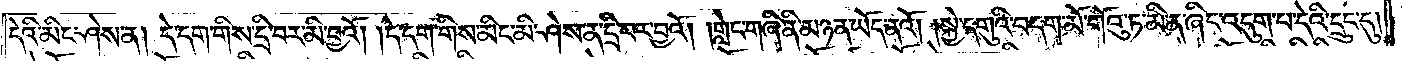དེའི་མིང་ཤེས་ན། དེ་དག་གིས་དྲི་བར་མི་བྱའོ། །དེ་དག་གིས་མིང་མི་ཤེས་ན་དྲི་བར་བྱའོ། །གླེང་གཞི་ནི་མཉན་ཡོད་ནའོ། །སྐྱེ་དགུའི་བདག་མོ་གོའུ་ཏ་མི་ན་ཞིང་འདུག་པ་དེའི་དྲུང་དུ།
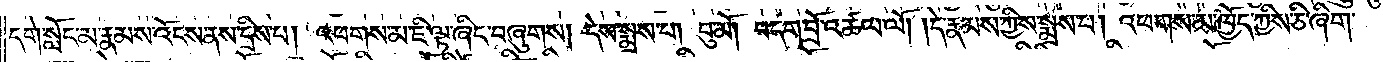དགེ་སློང་མ་རྣམས་འོངས་ནས་དྲིས་པ། འཕགས་མ་ཇི་ལྟ་ཞིང་བཞུགས། དེས་སྨྲས་པ། བུ་མོ། བདག་བྲོ་འཚལ་ལོ། །དེ་རྣམས་ཀྱིས་སྨྲས་པ། འཕགས་མ་ཁྱོད་ཀྱིས་ཅི་ཞིག་
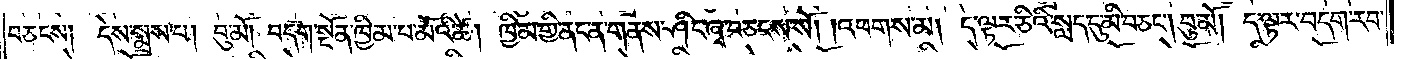བཅངས། དེས་སྨྲས་པ། བུ་མོ། བདག་སྔོན་ཁྱིམ་པ་མོའི་ཚེ། ཁྱིམ་གྱི་ནང་ན་གནས་ཤིང་ཞྭ་བཅངས་སོ། །འཕགས་མ། ད་ལྟར་ཅིའི་སླད་དུ་མི་བཅང༌། བུ་མོ། ད་ལྟར་བདག་རབ་
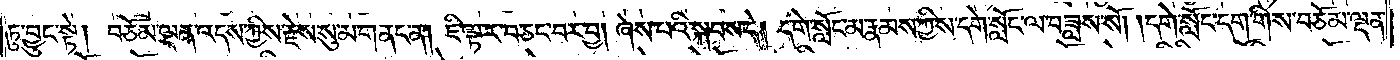ཏུ་བྱུང་སྟེ། བཅོམ་ལྡན་འདས་ཀྱིས་རྗེས་སུ་མ་གནང་ན། ཇི་ལྟར་བཅང་བར་བྱ། ཞེས་པའི་སྐབས་དེ། དགེ་སློང་མ་རྣམས་ཀྱིས་དགེ་སློང་ལ་བཟླས་སོ། །དགེ་སློང་དག་གིས་བཅོམ་ལྡན་
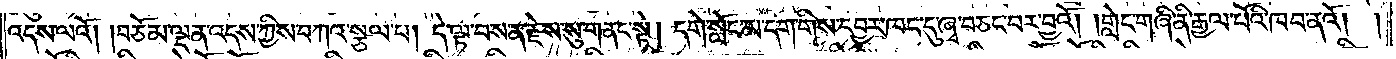འདས་ལའོ། །བཅོམ་ལྡན་འདས་ཀྱིས་བཀའ་སྩལ་པ། དེ་ལྟ་བས་ན་རྗེས་སུ་གནང་སྟེ། དགེ་སློང་མ་དག་གིས་དབྱར་ཁང་དུ་ཞྭ་བཅང་བར་བྱའོ། །གླེང་གཞི་ནི་རྒྱལ་པོའི་ཁབ་ནའོ། །
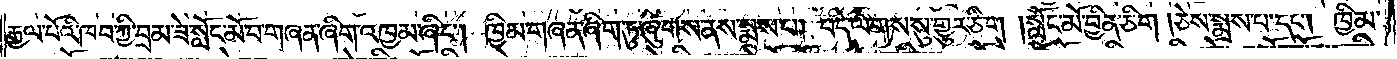རྒྱལ་པོའི་ཁབ་ཀྱི་བྲམ་ཟེ་སློང་མོ་བ་གཞན་ཞིག་འཁྱམ་ཞིང༌། ཁྱིམ་གཞན་ཞིག་ཏུ་ཞུགས་ནས་སྨྲས་པ། བདེ་ལེགས་སུ་གྱུར་ཅིག །སློང་མོ་བྱིན་ཅིག །ཅེས་སྨྲས་པ་དང༌། ཁྱིམ་
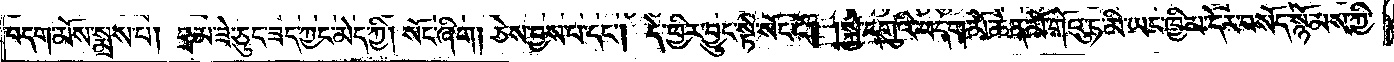བདག་མོས་སྨྲས་པ། བྲམ་ཟེ་ཅུང་ཟད་ཀྱང་མེད་ཀྱི། སོང་ཞིག །ཅེས་བྱས་པ་དང༌། དེ་ཕྱིར་བྱུང་སྟེ་སོང་ངོ༌། །སྐྱེ་དགུའི་བདག་མོ་ཆེན་མོ་གོའུ་ཏ་མི་ཡང་ཁྱིམ་དེར་བསོད་སྙོམས་ཀྱི་
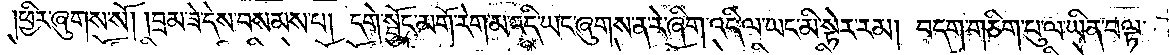ཕྱིར་ཞུགས་སོ། །བྲམ་ཟེ་དེས་བསམས་པ། དགེ་སྦྱོང་མགོ་རེག་མ་འདི་ཡང་ཞུགས་ན་རེ་ཞིག་འདི་ལ་ཡང་མི་སྟེར་རམ། བདག་གཅིག་པུ་ལ་ཡིན་བལྟ་
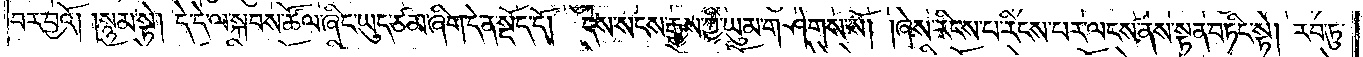བར་བྱའོ། །སྙམ་སྟེ། དེ་དེ་ལ་སྐབས་ཚོལ་ཞིང་ཡུད་ཙམ་ཞིག་དེ་ན་སྡོད་དོ། དེས་སངས་རྒྱས་ཀྱི་ཡུམ་གཤེགས་སོ། །ཞེས་རིངས་པ་རིངས་པར་ལངས་ནས་སྟན་བཏིང་སྟེ། རབ་ཏུ་
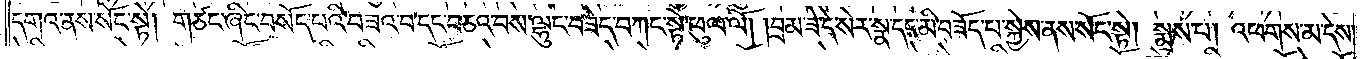དགའ་ནས་སོང་སྟེ། གཙང་ཞིང་བསོད་པའི་བཟའ་བ་དང་བཅའ་བས་ལྷུང་བཟེད་བཀང་སྟེ་ཕུལ་ལོ། །བྲམ་ཟེ་དེ་སེར་སྣ་དང་མི་བཟོད་པ་སྐྱེས་ནས་སོང་སྟེ། སྨྲས་པ། འཕགས་མ་དེས་
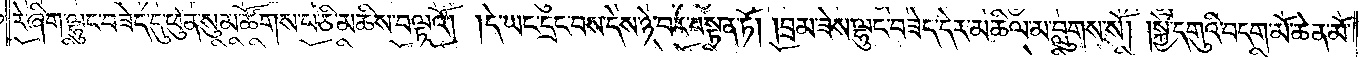རེ་ཞིག་ལྷུང་བཟེད་དུ་ཕུན་སུམ་ཚོགས་པ་ཅི་མཆིས་བལྟའོ། །དེ་ཡང་དྲང་བས་དེས་ཉེ་བར་བསྟན་ཏོ། །བྲམ་ཟེས་ལྷུང་བཟེད་དེར་མཆིལ་མ་བླུགས་སོ། །སྐྱེ་དགུའི་བདག་མོ་ཆེན་མོ་
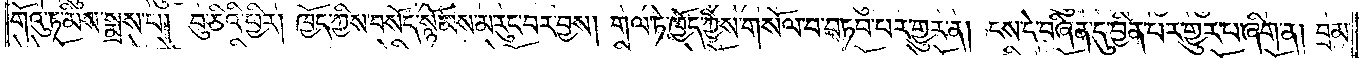གོའུ་ཏ་མིས་སྨྲས་པ། བུ་ཅིའི་ཕྱིར། ཁྱོད་ཀྱིས་བསོད་སྙོམས་མ་རུང་བར་བྱས། གལ་ཏེ་ཁྱོད་ཀྱིས་གསོལ་བ་བཏབ་པར་གྱུར་ན། ངས་དེ་བཞིན་དུ་བྱིན་པར་གྱུར་པ་ཞིག་ན། བྲམ་
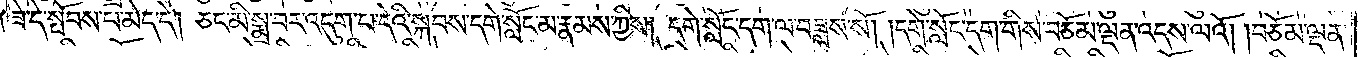ཟེ་དེ་སྤོབས་པ་མེད་དེ། ཅང་མི་སྨྲ་བར་འདུག་པ་དེའི་སྐབས་དགེ་སློང་མ་རྣམས་ཀྱིས། དགེ་སློང་དག་ལ་བཟླས་སོ། །དགེ་སློང་དག་གིས་བཅོམ་ལྡན་འདས་ལའོ། །བཅོམ་ལྡན་
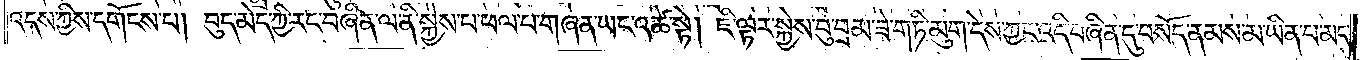འདས་ཀྱིས་དགོངས་པ། བུད་མེད་ཀྱི་རང་བཞིན་ལ་ནི་སྐྱེས་པ་ཕལ་པ་གཞན་ཡང་འཚེ་སྟེ། ཇི་ལྟར་སྐྱེས་བུ་བྲམ་ཟེ་གཏི་མུག་དེས་ཀྱང་འདི་བཞིན་དུ་བསོད་ནམས་མ་ཡིན་པ་མང་
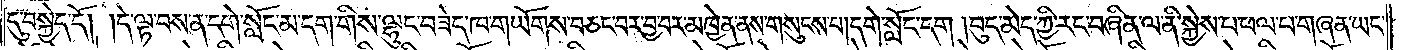དུ་བསྐྱེད་དོ། །དེ་ལྟ་བས་ན་དགེ་སློང་མ་དག་གིས་ལྷུང་བཟེད་ཁ་གཡོགས་བཅང་བར་བྱ་བར་མཁྱེན་ནས་གསུངས་པ། དགེ་སློང་དག །བུད་མེད་ཀྱི་རང་བཞིན་ལ་ནི་སྐྱེས་པ་ཕལ་པ་གཞན་ཡང་
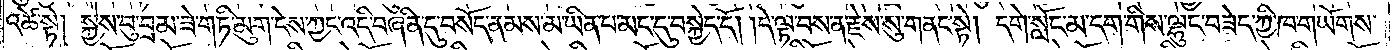འཚེ་སྟེ། སྐྱེས་བུ་བྲམ་ཟེ་གཏི་མུག་དེས་ཀྱང་འདི་བཞིན་དུ་བསོད་ནམས་མ་ཡིན་པ་མང་དུ་བསྐྱེད་དོ། །དེ་ལྟ་བས་ན་རྗེས་སུ་གནང་སྟེ། དགེ་སློང་མ་དག་གིས་ལྷུང་བཟེད་ཀྱི་ཁ་གཡོགས་
